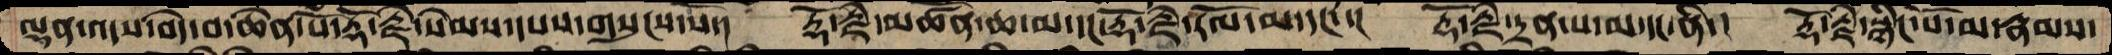ལྡན་འདས་བདེ་བ་ཆེན་པོ་རྡོ་རྗེ་སེམས་དསས་གསུངས་སོ་།   རྡོ་རྗེ་མཚོན་ཆ་མ་དང་རྡོ་རྗེ་རོལ་མ་དང་་།  རྡོ་རྗེ་དྲན་ས་མ་དང་ནི་།  རྡོ་རྗེ་སྙིང་པོ་མ་རྣམས་
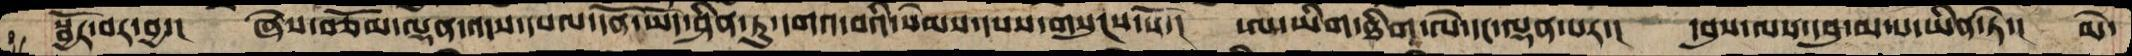སྦྱོར་བར་བྱ་།  ཞེས་བཅོམ་ལྡན་འདས་དཔལ་དོན་ཡོད་ཤིན་ཏུ་དགའ་བའི་སེམས་དཔས་གསུངས་སོ་།  ཨ་ཡིག་ཐིག་ལེ་དང་ལྡན་པར་།  དབུས་ལས་དབུ་མ་པ་ཡིན་ཏེ་།  མེ་
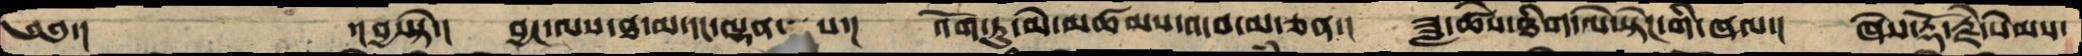༄༅་།       ་།བྱ་སྟེ་། བྱང་ལས་ཐ་མ་དང་ལྡན་་པ་།  འོག་ཏུ་མེ་མཚམས་འདབ་མ་ཅན་། ཟླ་ཚེས་ཐིག་ལེ་སྟེང་གི་ཞལ་། ཞེས་རྡོ་རྗེ་སེམས་
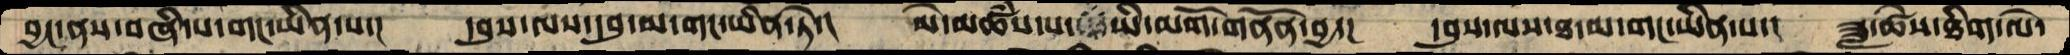བྱང་ནས་བཞི་པ་གང་ཡིན་པ་། དབུས་ལས་དབུ་མ་གང་ཡིན་ཏེ་། མེ་མཚཾས་པ་ཡི་མགོ་གནོན་བྱ་། དབུས་ལས་ཐ་མ་གང་ཡིན་པ་། ཟླ་ཚེས་ཐིག་ལེ་
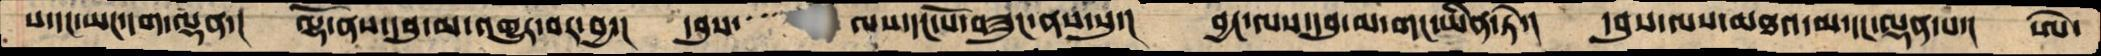ས་དང་ཡང་དག་ལྡན་། ལྷོ་ནས་དབུ་མ་འགྱུར་བར་བྱ་།  དབུས་་་་་ལས་དང་པོ་བཟུང་ནས་སུ་། བྱང་ལས་དབུ་མ་གང་ཡིན་ཏེ་། དབུས་ལས་མཐའ་མ་དང་ལྡན་པ་། ཨེ་
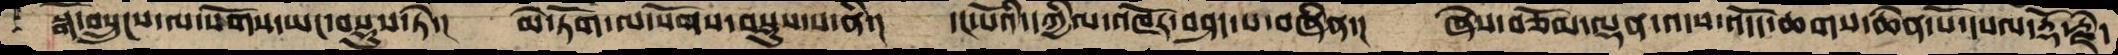སྒོ་བསྲུངས་ལ་སོགས་ཡང་བསྡུས་ཏེ་། མེ་ཏོག་ལ་སོགས་བསྡུས་པ་ནི་། དང་པོའི་དཀྱིལ་འཁོར་བཤད་པ་བཞིན་། ཞེས་བཅོམ་ལྡན་འདས་འདོད་ཆགས་ཆེན་པོ་དཔལ་རྡོ་རྗེ་
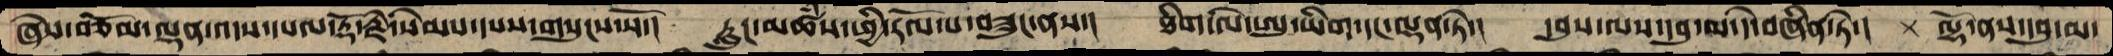ཞེས་བཅོམ་ལྡན་འདས་དཔལ་རྡོ་རྗེ་སེམས་དཔས་གསུངས་སོ་།  རླུང་མཚཾས་ཕྱི་རོལ་པ་བཟུང་ནས་། ཐིག་ལེ་ཨུ་ཡིག་དང་ལྡན་ཏེ་། དབུས་ལས་དབུ་མ་དེ་བཞིན་ཏེ་།  ལྷོ་ནས་དབུ་མ་
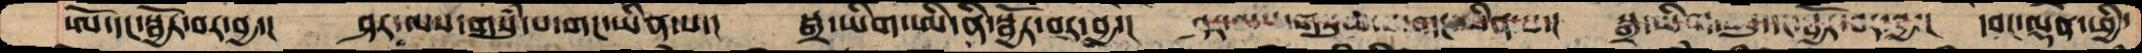ཨོ་དང་སྦྱོར་བར་བྱ་། ཤར་ལས་གསུཾ་པ་གང་ཡིན་པ་།  སྒྲ་ཡིག་ཨི་ནི་སྦྱོར་བར་བྱ་། ཤར་ལས་གསུམ་པ་གང་ཡིན་པ་། སྒྲ་ཡིག་ཨུ་དང་སྦྱོར་བར་བྱ་།  དབང་ལྡན་ཕྱི་
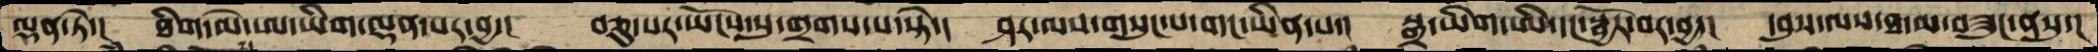ལྡན་ཏེ་།  ཐིག་ལེ་ཨ་ཡིག་ལྡན་པར་བྱ་།  བཅུ་པར་ཡོངས་སུ་གྲགས་པ་སྟེ་།  ཤར་ལས་གསུངས་པ་གང་ཡིན་པ་།  སྒྲ་ཡིག་ཨི་དང་སྦྱོར་བར་བྱ་།  དབུས་ལས་ཐ་མ་བཟུང་ནསུ་།
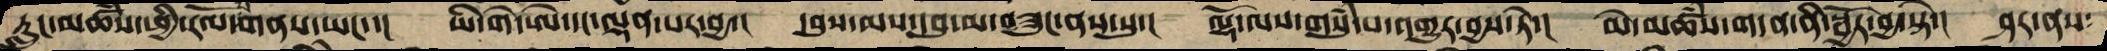རླུང་མཚཾས་ཕྱི་རོལ་པ་གནས་ཡང་་།  ཡི་གེ་ཨེ་དང་ལྡན་པར་བྱ་།  དབུས་ལས་དབུ་མ་བཟུང་ནས་སུ་།  ལྷོ་ལས་གསུཾ་པ་འགྱུར་བྱས་ཏེ་།  མེ་མཚཾས་གདན་ནི་སྦྱོར་བྱ་སྟེ་།  ཤར་ནས་
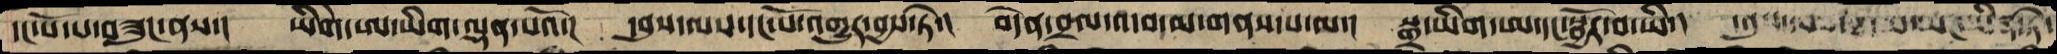དང་པོ་པ་བཟུང་ནས་།  ཡིགེ་ཨ་ཡིག་ལྡན་པའོ་།  དབུས་ལས་དང་པོ་འགྱུར་བྱས་ཏེ་།  བདེན་བྲལ་འདབ་མ་གནས་པ་ལ་།  སྒྲ་ཡིག་ཨ་དང་སྦྱོར་བ་ཡི་།  དབུས་ལས་དབུ་མ་པ་ཡིན་ཏེ་
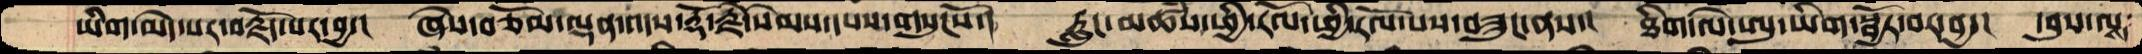ཡིག་མེད་པར་བརྗོད་པར་བྱ་།  ཞེས་བཅོམ་ལྡན་འདས་རྡོ་རྗེ་སེམས་དཔས་གསུངསོ་།  རླུང་མཚཾས་ཕྱི་རོལ་ཕྱི་རོལ་པས་བཟུང་ནས་།  ཐིག་ལེ་ཨུ་ཡིག་སྦྱོར་བར་བྱ་།  དབུས་ལས་
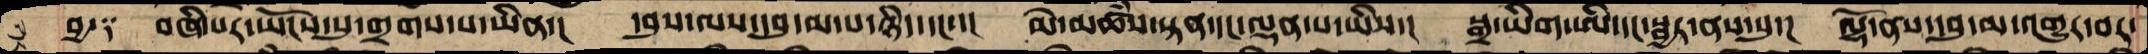བྱ༑  བཞི་པར་ཡོངས་སུ་གྲགས་པ་ཡིན་།  དབུས་ལས་དབུ་མ་པ་ཉིད་དང་་། མེ་མཚཾས་སྟན་དང་ལྡན་པ་ཡིས་།  སྒྲ་ཡིག་ཨི་དང་སྦྱར་ནས་སུ་། ལྷོ་ནས་དབུ་མ་འགྱུར་བར་
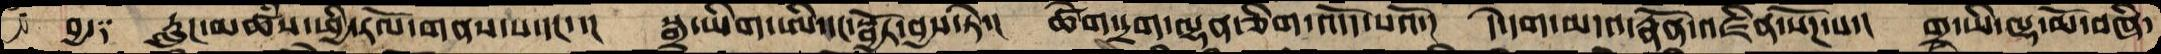བྱ༑  རླུང་མཚཾས་ཕྱི་རོལ་གནས་པ་དང་་།  སྒྲ་ཡིག་ཨི་དང་སྦྱོར་བྱས་ཏེ་། ཚེག་དྲག་ལྡན་ཅིག་འདོད་པའོ་། དེ་དག་མདའ་རྣོན་འཛིན་སོཌ་པ་། གྲྭ་ཡི་ལྷ་མོ་བཞི་
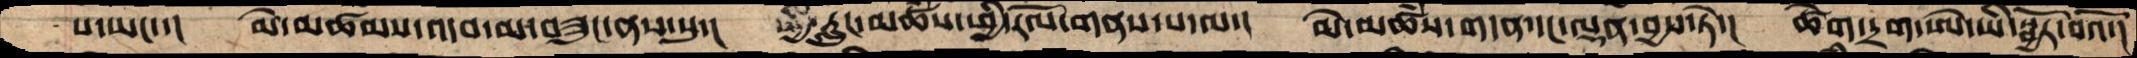པ་ཡང་་།  མེ་མཚམས་འདབ་མ་བཟུང་ནས་སུ་།  རླུང་མཚཾས་ཕྱི་རོལ་གནས་པ་ལ་། མེ་མཚཾས་གདན་དང་ལྡན་བྱས་ཏེ་། ཚེག་དྲག་ཨེ་ཡི་སྦྱོར་བའོ་།
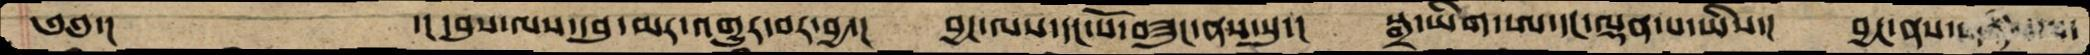༄༅་།       ་།དབུས་ལས་དབུ་མར་འགྱུར་བར་བྱ་།  བྱང་ལས་དང་པོ་བཟུང་ནས་སུ་།  སྒྲ་ཡིག་ཨ་དང་ལྡན་པ་ཡིས་། བྱང་ནས་གཉིས་ལ་
